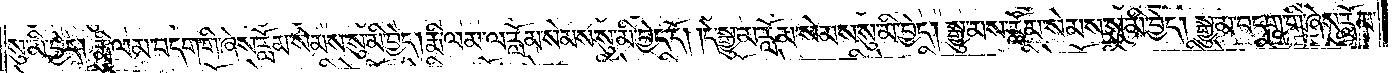སུ་མི་བྱེད། རྨི་ལམ་བདག་གི་ཞེས་རློམ་སེམས་སུ་མི་བྱེད། རྨི་ལམ་ལ་རློམ་སེམས་སུ་མི་བྱེད་དོ། །དེ་སྒྱུ་མ་རློམ་སེམས་སུ་མི་བྱེད། སྒྱུ་མས་རློམ་སེམས་སུ་མི་བྱེད། སྒྱུ་མ་བདག་གི་ཞེས་རློམ་
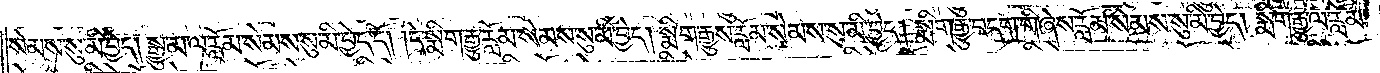སེམས་སུ་མི་བྱེད། སྒྱུ་མ་ལ་རློམ་སེམས་སུ་མི་བྱེད་དོ། །དེ་སྨིག་རྒྱུ་རློམ་སེམས་སུ་མི་བྱེད། སྨིག་རྒྱུས་རློམ་སེམས་སུ་མི་བྱེད། སྨིག་རྒྱུ་བདག་གི་ཞེས་རློམ་སེམས་སུ་མི་བྱེད། སྨིག་རྒྱུ་ལ་རློམ་
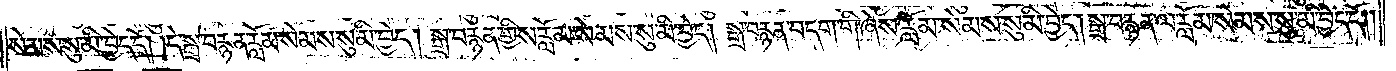སེམས་སུ་མི་བྱེད་དོ། །དེ་སྒྲ་བརྙན་རློམ་སེམས་སུ་མི་བྱེད། སྒྲ་བརྙན་གྱིས་རློམ་སེམས་སུ་མི་བྱེད། སྒྲ་བརྙན་བདག་གི་ཞེས་རློམ་སེམས་སུ་མི་བྱེད། སྒྲ་བརྙན་ལ་རློམ་སེམས་སུ་མི་བྱེད་དོ། །
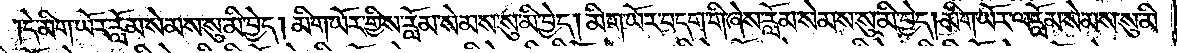དེ་མིག་ཡོར་རློམ་སེམས་སུ་མི་བྱེད། མིག་ཡོར་གྱིས་རློམ་སེམས་སུ་མི་བྱེད། མིག་ཡོར་བདག་གི་ཞེས་རློམ་སེམས་སུ་མི་བྱེད། མིག་ཡོར་ལ་རློམ་སེམས་སུ་
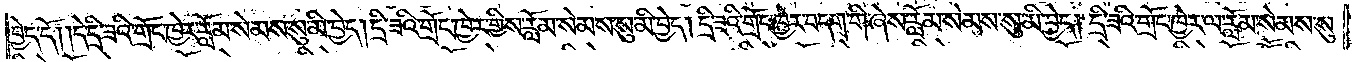མི་བྱེད་དོ། །དེ་དྲི་ཟའི་གྲོང་ཁྱེར་རློམ་སེམས་སུ་མི་བྱེད། དྲི་ཟའི་གྲོང་ཁྱེར་གྱིས་རློམ་སེམས་སུ་མི་བྱེད། དྲི་ཟའི་གྲོང་ཁྱེར་བདག་གི་ཞེས་རློམ་སེམས་སུ་མི་བྱེད། དྲི་ཟའི་གྲོང་ཁྱེར་ལ་རློམ་སེམས་སུ་
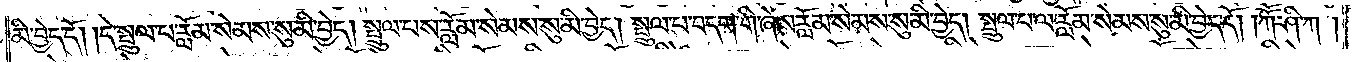མི་བྱེད་དོ། །དེ་སྤྲུལ་པ་རློམ་སེམས་སུ་མི་བྱེད། སྤྲུལ་པས་རློམ་སེམས་སུ་མི་བྱེད། སྤྲུལ་པ་བདག་གི་ཞེས་རློམ་སེམས་སུ་མི་བྱེད། སྤྲུལ་པ་ལ་རློམ་སེམས་སུ་མི་བྱེད་དོ། །ཀཽ་ཤི་ཀ།
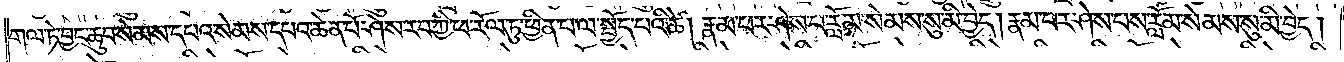གལ་ཏེ་བྱང་ཆུབ་སེམས་དཔའ་སེམས་དཔའ་ཆེན་པོ་ཤེས་རབ་ཀྱི་ཕ་རོལ་ཏུ་ཕྱིན་པ་ལ་སྤྱོད་པའི་ཚེ། རྣམ་པར་ཤེས་པ་རློམ་སེམས་སུ་མི་བྱེད། རྣམ་པར་ཤེས་པས་རློམ་སེམས་སུ་མི་བྱེད།
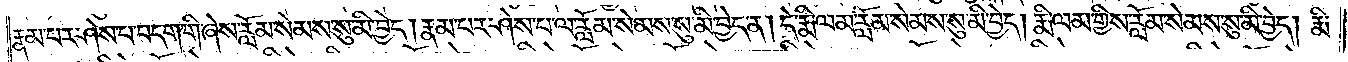རྣམ་པར་ཤེས་པ་བདག་གི་ཞེས་རློམ་སེམས་སུ་མི་བྱེད། རྣམ་པར་ཤེས་པ་ལ་རློམ་སེམས་སུ་མི་བྱེད་ན། དེ་རྨི་ལམ་རློམ་སེམས་སུ་མི་བྱེད། རྨི་ལམ་གྱིས་རློམ་སེམས་སུ་མི་བྱེད། རྨི་
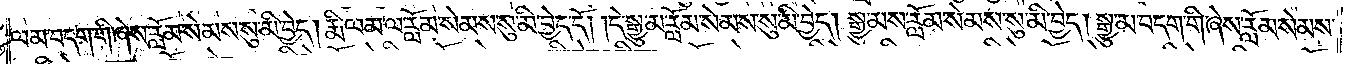ལམ་བདག་གི་ཞེས་རློམ་སེམས་སུ་མི་བྱེད། རྨི་ལམ་ལ་རློམ་སེམས་སུ་མི་བྱེད་དོ། །དེ་སྒྱུ་མ་རློམ་སེམས་སུ་མི་བྱེད། སྒྱུ་མས་རློམ་སེམས་སུ་མི་བྱེད། སྒྱུ་མ་བདག་གི་ཞེས་རློམ་སེམས་
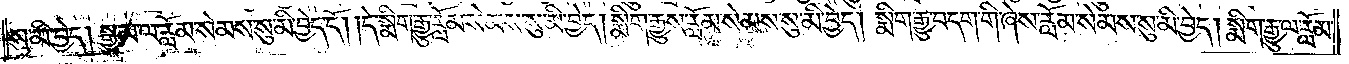སུ་མི་བྱེད། སྒྱུ་མ་ལ་རློམ་སེམས་སུ་མི་བྱེད་དོ། །དེ་སྨིག་རྒྱུ་རློམ་སེམས་སུ་མི་བྱེད། སྨིག་རྒྱུས་རློམ་སེམས་སུ་མི་བྱེད། སྨིག་རྒྱུ་བདག་གི་ཞེས་རློམ་སེམས་སུ་མི་བྱེད། སྨིག་རྒྱུ་ལ་རློམ་
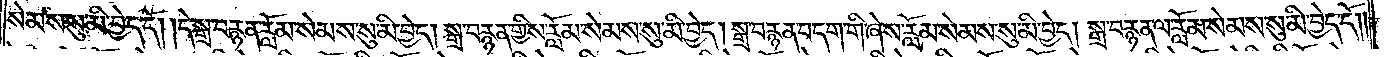སེམས་སུ་མི་བྱེད་དོ། །དེ་སྒྲ་བརྙན་རློམ་སེམས་སུ་མི་བྱེད། སྒྲ་བརྙན་གྱིས་རློམ་སེམས་སུ་མི་བྱེད། སྒྲ་བརྙན་བདག་གི་ཞེས་རློམ་སེམས་སུ་མི་བྱེད། སྒྲ་བརྙན་ལ་རློམ་སེམས་སུ་མི་བྱེད་དོ། །
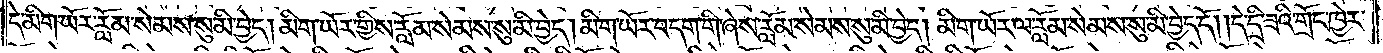དེ་མིག་ཡོར་རློམ་སེམས་སུ་མི་བྱེད། མིག་ཡོར་གྱིས་རློམ་སེམས་སུ་མི་བྱེད། མིག་ཡོར་བདག་གི་ཞེས་རློམ་སེམས་སུ་མི་བྱེད། མིག་ཡོར་ལ་རློམ་སེམས་སུ་མི་བྱེད་དོ། །དེ་དྲི་ཟའི་གྲོང་ཁྱེར་
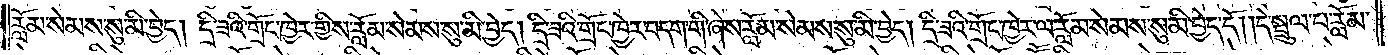རློམ་སེམས་སུ་མི་བྱེད། དྲི་ཟའི་གྲོང་ཁྱེར་གྱིས་རློམ་སེམས་སུ་མི་བྱེད། དྲི་ཟའི་གྲོང་ཁྱེར་བདག་གི་ཞེས་རློམ་སེམས་སུ་མི་བྱེད། དྲི་ཟའི་གྲོང་ཁྱེར་ལ་རློམ་སེམས་སུ་མི་བྱེད་དོ། །དེ་སྤྲུལ་པ་རློམ་
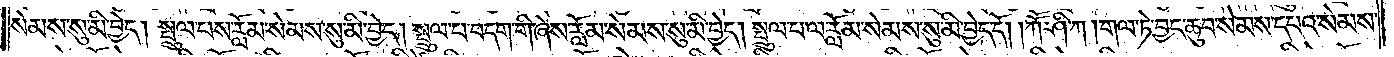སེམས་སུ་མི་བྱེད། སྤྲུལ་པས་རློམ་སེམས་སུ་མི་བྱེད། སྤྲུལ་པ་བདག་གི་ཞེས་རློམ་སེམས་སུ་མི་བྱེད། སྤྲུལ་པ་ལ་རློམ་སེམས་སུ་མི་བྱེད་དོ། །ཀཽ་ཤི་ཀ། གལ་ཏེ་བྱང་ཆུབ་སེམས་དཔའ་སེམས་
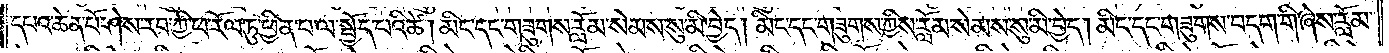དཔའ་ཆེན་པོ་ཤེས་རབ་ཀྱི་ཕ་རོལ་ཏུ་ཕྱིན་པ་ལ་སྤྱོད་པའི་ཚེ། མིང་དང་གཟུགས་རློམ་སེམས་སུ་མི་བྱེད། མིང་དང་གཟུགས་ཀྱིས་རློམ་སེམས་སུ་མི་བྱེད། མིང་དང་གཟུགས་བདག་གི་ཞེས་རློམ་
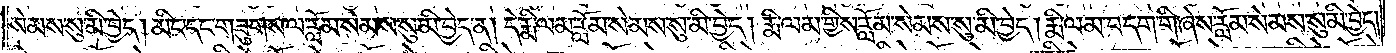སེམས་སུ་མི་བྱེད། མིང་དང་གཟུགས་ལ་རློམ་སེམས་སུ་མི་བྱེད་ན། དེ་རྨི་ལམ་རློམ་སེམས་སུ་མི་བྱེད། རྨི་ལམ་གྱིས་རློམ་སེམས་སུ་མི་བྱེད། རྨི་ལམ་བདག་གི་ཞེས་རློམ་སེམས་སུ་མི་བྱེད།
